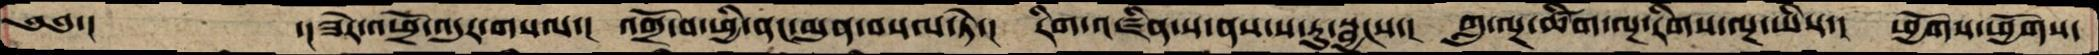༄༅་།   ་།ཟེར་འཕྲོ་འདུར་གསལ་།  འགྲོ་བ་ཕྱི་ནང་མུན་བསལ་ཏེ་།  རིག་འཛིན་ས་ནས་ས་རུ་སྦྱངས་།  ཀླུ་ལྔ་ཚིག་ལྔ་རིགས་ལྔ་ཡིས་།  ཕྱོགས་ཕྱོགས་
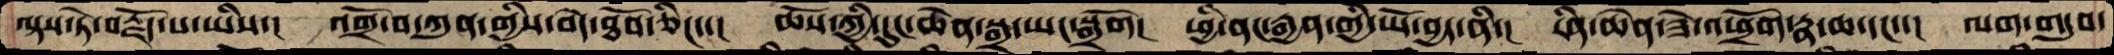ལྟས་ཏེ་བརྗོད་པ་ཡིས་།  འགྲོ་བ་ཀུན་གྱིས་བདེ་ཐོབ་ཅིང་་།  ཆོས་ཀྱི་དུང་ཆེན་སྒྲ་ཡང་སྒྲོག།  ཕྱི་ནང་རྒྱན་གྱི་ཡོ་བྱད་ནི་། རིན་ཆེན་ཟེ་འཕྲོག་རྣ་ཆ་དང་་།  ལག་གདུབ་
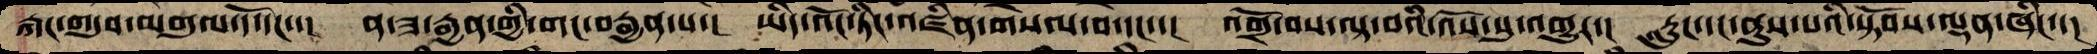རྐང་གདུབ་མགུལ་དོ་དང་་།  ན་ཟ་རྒྱན་གྱི་གང་བརྒྱན་པ་།  ཡིད་འོང་ཏིང་འཛིན་གསལ་བ་དང་་།  འགྲོ་བས་ལྟ་བའི་འོས་སུ་འགྱུར་།  རླུང་དང་ནུས་པའི་སྟོབས་ལྡན་ཞིང་་།
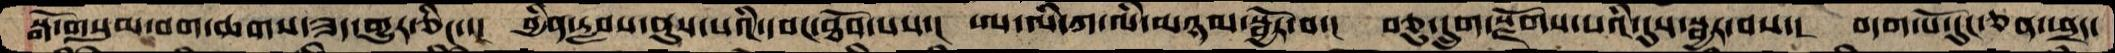སྒོ་གསུམ་བག་ཆགས་ཟད་གྱུར་ཅིང་་།  བྱིན་རླབས་ནུས་པའི་དབང་ཐོབ་པས་།  ཨ་ལི་ཀ་ལི་མཉམ་སྦྱོར་བ་།  བཅུ་དྲུག་སྫོགས་པའི་དུས་སྦྱར་བས་།  བདག་པོ་དུང་ཅན་ཕྲད་
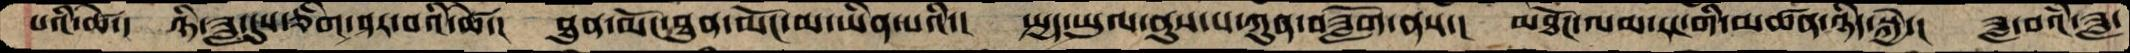པའི་ཚེ་།  ཉི་ཟླ་དུས་ཅིག་ཤར་བའི་ཚེ་།  ཐུན་མོང་ཐུན་མོང་མ་ཡིན་པའི་།  སྤྱད་ཡུལ་ནུས་པ་ཀུན་བཟློག་ནས་།  མཐོང་ལམ་རང་གི་མཚན་ཉིད་སྐྱེ་།  ཟླ་བའི་ཟླ་
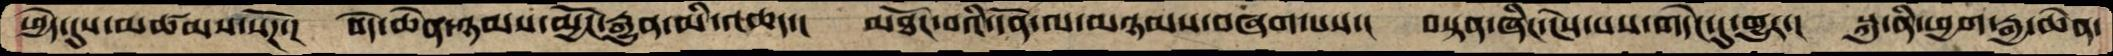ཕྱེད་དུས་མཚམས་སོཌ་།  བདེ་ཆེན་ཉམས་མྱོང་རྒྱུན་མི་འཆད་།  མཐོང་བའི་དོན་ལ་མཉམས་བཞག་པས་།  བསྟན་ཞིང་ངེས་པས་གདེང་དུ་གྱུར་།  སྐུ་ནི་ཕྱག་རྒྱ་ཆེན་
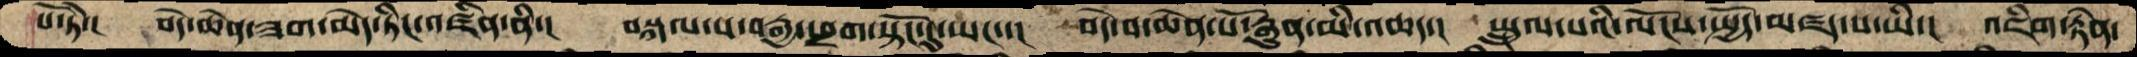པོ་ཏེ་།  བདེ་ཆེན་ཟག་མེད་ཏིང་འཛིན་ནི་།  བསྐལ་པ་བརྒྱ་ཕྲག་སྟོང་དུ་ཡང་་།  བདེ་བ་ཆེན་པོ་རྒྱུན་མི་འཆད་།  སྤྲུལ་པའི་ལོངས་སྤྱོད་མཛད་པ་ཡི་།  འཇིག་རྟེན་
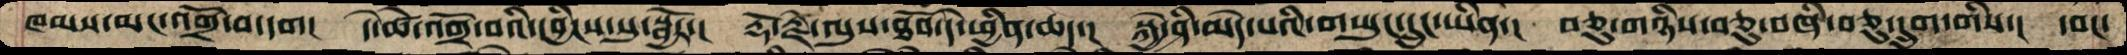ཁམས་མང་འགྲོ་བ་དག་།  དེ་ཚེ་འགྲོ་བའི་དབྱིངས་སུ་སྦྱོར་།  རྡོ་རྗེ་ལུས་ཐོབ་དེ་ཕྱིན་ཆད་།  སྐྱེ་ཤི་མེད་པའི་གཡུང་དྲུང་ཡིན་།  བཅུ་གཉིས་བཅུ་བཞི་བཅུ་དྲུག་གིས་།  དབང་
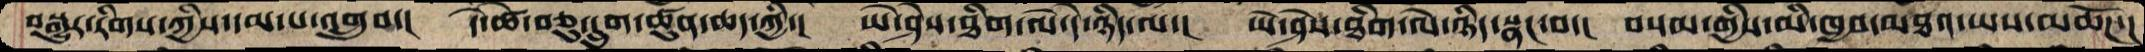བསྒྱུར་རིགས་ཀྱིས་དམ་པ་འགྲུབ་།  དེ་ཚེ་བཅུ་དྲུག་ཚུན་ཆད་ཀྱི་།  ཡེ་ཤེས་ཐིག་ལེ་དེ་ཉིད་ལ་།  ཡེ་ཤེས་ཐིག་ལེ་ཉིད་སྣང་བ་།  བསམ་གྱིས་མི་ཁྱབ་མཐའ་ཡས་མཆོཌ་།
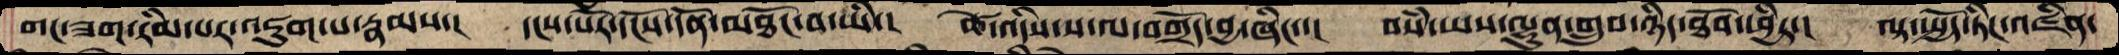གང་ཟག་རིམ་པར་འཇུག་པ་རྣམས་།  དངས་པོར་དངོས་དོན་མཐོང་བ་ཡི་།  ཚེ་འདིས་ས་ལ་བགྲོད་བྱ་ཞིང་་།  བསཾ་ཡས་ལྷུན་གྲུབ་ཉིད་ཐོབ་ཕྱིར་།  ལྟ་སྤྱོད་ཏིང་འཛིན་
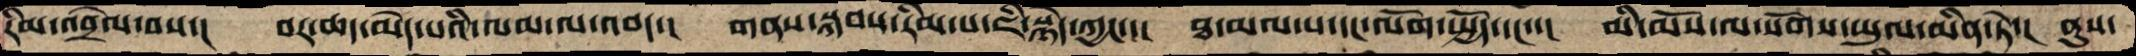རིམ་འབྲེལ་བས་།  བར་ཆད་མེད་པའི་ལམ་ལ་འབད་།  གནས་སྐབས་རིམ་པ་ཇི་སྙེད་ཀྱང་་།  ཐ་མལ་པ་དང་ལོག་སྤྱོད་དང་་།  མི་མོས་ལ་སོགས་ཡུལ་མིན་ཏེ་།  ནུས་
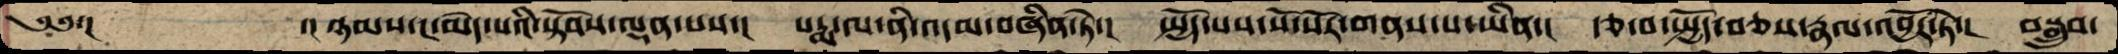༄༅་།        ་། ཉམས་ང་མེད་པའི་སྟོབས་ལྡན་པས་།  པདྨ་ལ་ནི་འདམ་བཞིན་ཏེ་།  སྤྱོད་པས་སོ་སོར་གནས་པ་ཡིན་།  རྩ་བ་སྤྱོད་བཅས་རྣལ་འབྱོར་ཏེ་།  བསྒྲུབ་
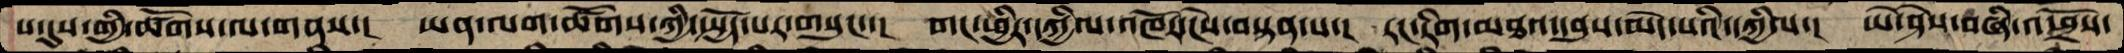པ་དུས་གྱི་ཚོགས་ལ་གནས་།  ཡན་ལག་ཚོགས་ཀྱི་སྤྱོད་པར་གསུང་་།  གང་ཕྱིར་དཀྱིལ་འཁོར་ངེས་བསྟན་པ་།  རང་རིག་མཐའ་དབུས་མེད་པའི་དཀྱིལ་།  ཡེ་ཤེས་བཞི་འཕྲོས་
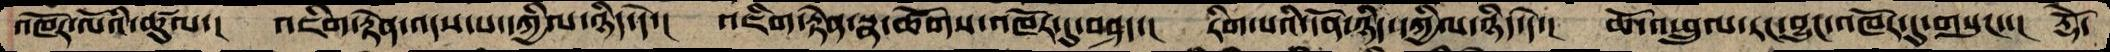འཁོར་ལོའི་ཚུལ་།  འཇིག་རྟེན་འདས་པ་དཀྱིལ་ཉིད་དེ་།  འཇིག་རྟེན་སྣ་ཚོགས་འཁོར་དུ་བཤད་།  རིག་པའི་དོན་ཉིད་དཀྱིལ་ཉིད་དེ་།  ཆོ་འཕྲུལ་རང་བྱུང་འཁོར་དུ་གསུང་་།  རྡོེ་
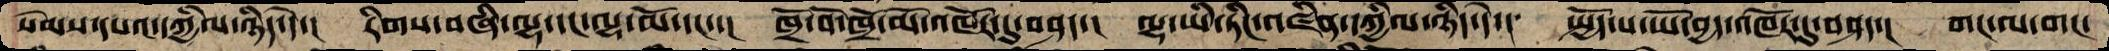སེམས་དཔའ་དཀྱིལ་ཉིད་དེ་།  རིགས་བཞི་ལྷ་དང་ལྷ་མོ་དང་་།  ཁྲོ་བོ་ཁྲོ་མོ་འཁོར་དུ་བཤད་།  ལྷ་ཡི་ཏིང་འཛིན་དཀྱིལ་ཉིད་དེ་།  སྤྱོད་པ་ཡོ་བྱད་འཁོར་དུ་བཤད་།   གང་ལ་གང་
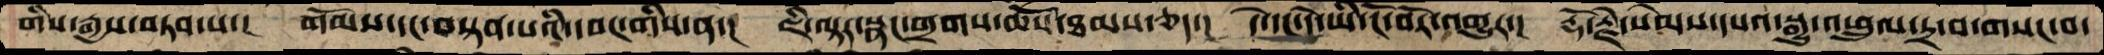གིས་རྒྱས་བཏབ་པ་།  གོམས་དང་བསྟན་པའི་དབང་གིས་ན་།  ཇི་ལྟར་སྣང་གྲགས་ཆོས་ཐམས་ཅད་།  དེ་དང་དེ་ཡི་ངོ་བོར་འགྱུར་།  རྡོ་རྗེ་སེམས་དཔའ་སྒྱུ་འཕྲུལ་དྲ་བ་གསང་བ་
